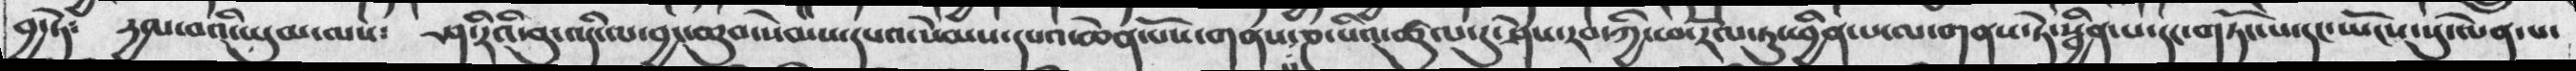བྱ་ཏེ༴  རྱལ་བའི་ཡུམ་ལས༴  ཤ་རིའི་བུ་འདི་ལ་བྱང་ཆུབ་སེམས་དཔའ་སེམས་དཔའ་ཆེན་པོས་གནས་ཎ་པའི་ཚུལ་དུ་ཤེས་རབ་ཀྱི་ཕ་རོལ་ཏུ་ཕྱིན་པ་ལ་གནས་ཏེ་སྦྱིན་པ་དང་གཏོང་པ་དང་ཡོངས་སུ་ལེན་པ་
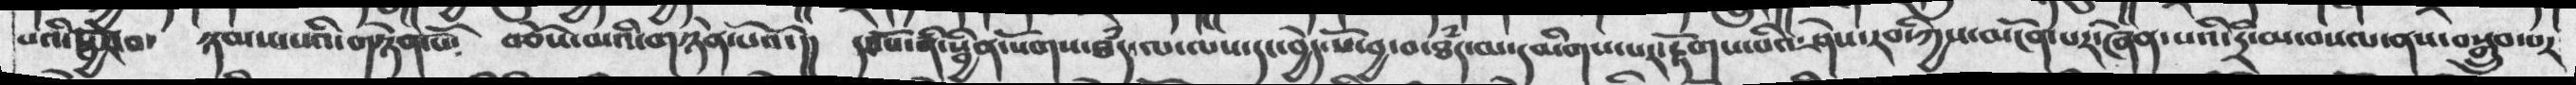པའི་སྦྱོར་བ་  ཉམས་པའི་གཉེན་པོ  བཅོས་མའི་གཉེན་པོའོ་།།  དཅོས་ནི་སྦྱིན་སོགས་ཐཾད་ལ་ལས་དང་བྱེད་པོ་བྱ་བ་ཐཾད་མ་དམིགས་པར་རྟོགས་པའི་ཤེས་རབ་ཀྱིས་མངོན་པར་ཞེན་པའི་དྲི་མ་བསལ་ནས་བསྒྲུབ་བར
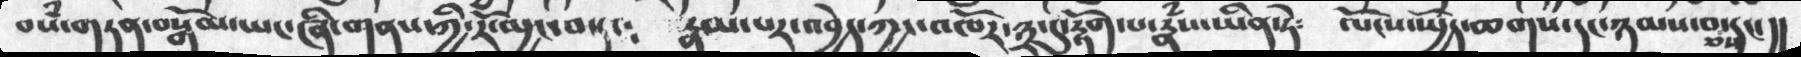བསཾ་གཏན་བསྒོམ་ཡང་ཞི་གནས་ཀྱི་རོ་མྱང་བསྟང༴  རྣམ་པར་འབྱེད་ཀྱང་འཁོར་༣་དུ་རྟོག་པ་རྣཾས་ཡིན་ཏེ༴  ལོངས་སྤྱོད་ཆགས་དང་ཉམས་བཅས་དང་།།
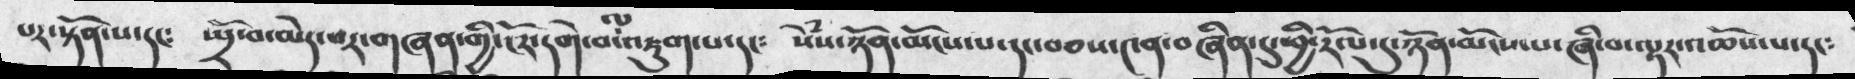པར་སྟོན་པ་དང༴   སྤྲོ་བ་མེད་པར་གཞན་གྱི་ངོར་དགེ་བ་ལ་འཇུག་པ་དང༴    སེཾས་ཉོན་མོངས་པ་དང་བཅས་༤ན་བཞིན་དུ་ཕྱི་རོལ་དུལ་ཉོན་མོངས་པ་ཞི་བ་ལྟར་འཆོས་པ་དང༴
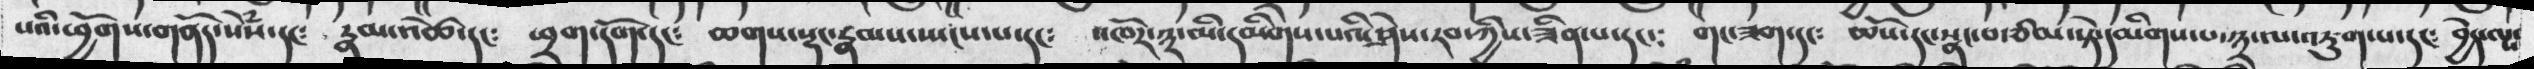པའི་ཕྱོགས་གནོད་སེཾས་དང༴   རྣམ་འཚེ་དང༴   ཕྲག་དོག་དང༴   ཆགས་སྡང་རྣམས་སྤངས་པ་རང༴   འཁོར་༣་མི་དམིགས་པའི་ཤེས་རབ་ཀྱིས་ཟིན་པ་དང༴  གང་ཟག་དང༴   ཆོས་དང་སྣང་བ་ཙམ་སྟེ་དམིགས་པ་༣་ལ་འཇུག་པ་དང༴   བྱེད་ལས་
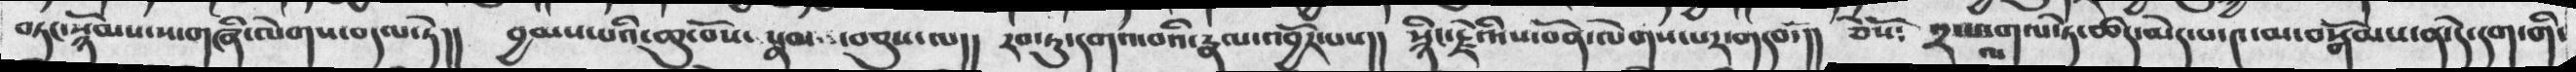བཏང་སྙོམས་ས་གཞི་ལེགས་བདལ་ཏེ།།   བྱམས་པའི་ཆུ་བོས་རྣམ་བཅུས་ལ།།   རབ་ཏུ་དགའ་བའི་རྣལ་འབྱོར་པས།།  སྙིང་རྗེའི་ས་བོན་ལེགས་པར་གདབ་།།  ཅེསོ༴   ༢་པ་ལ་གལ་ཏེ་ཚད་མེད་པ་༤་མ་བསྒོམས་ན་དེ་དག་གི་
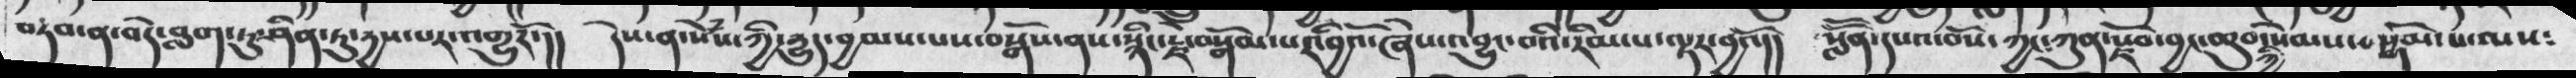བཏབ་ན་བདེ་བླག་ཏུ་ཤིན་ཏུ་དྱས་པར་འགྱུརོ་།།  དེས་ན་སེཾས་ཀྱི་དྱུད་བྱམས་པས་བསྒོས་ནས་སྙིང་རྗེ་བསྒོམ་པར་མི་བྱའོ་ཞེས་འབྱུང་བའི་རིམ་པ་ལྟར་བྱའོ།།   སློོན་དཔའ་བོས་ཀྱང༴ཀུན་རྫོམ་བྱང་ཆུབ་ཀྱི་སེམས་བསྒོམ་པ་ལས༴
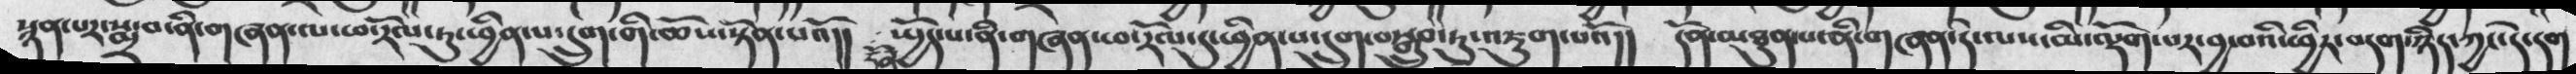སྙན་པར་སྨྲ་བ་ནི་གཞན་ལ་ཕ་རོལ་ཏུ་ཕྱིན་པ་དྲུག་གི་ཆོས་སྟོན་པའོ།།  དོན་སྤྱོད་པ་ནི་གཞན་ཕ་རོལ་དུ་ཕྱིན་པ་དྲུག་བསྒྲུབ་ཏུ་འཇུག་པའོ།།  དོན་མཐུན་པ་ནི་གཞན་དེ་ལས་མི་ལྡོག་པར་བྱ་བའི་ཕྱིར་བདག་ཉིད་ཀྱང་དེ་དག
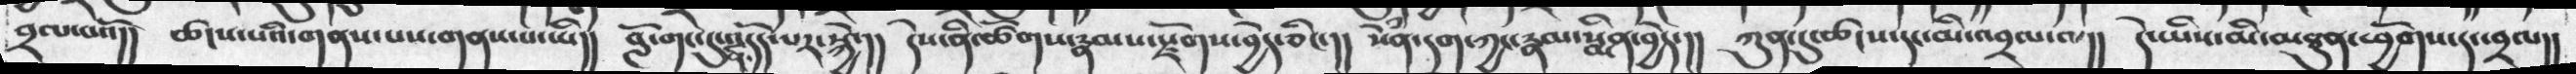བྲལ་བའོ།།  ཚངས་པའི་གནས་པས་གནས་པ་ཡི།།  བློ་གང་དུ་འདོད་པར་སྐྱེ་།།  དེས་ནི་ཚོགས་རྣམས་རྫོགས་བྱེད་ཅིང་།།  སེཾན་དག་ཀྱང་རྣམ་སྨིན་བྱེད་།།  ཀུན་དུ་ཚངས་དང་མི་འབྲལ་ལ།།  དེ་ཡིས་མི་མཐུན་ཕྱོགས་དང་བྲལ།།
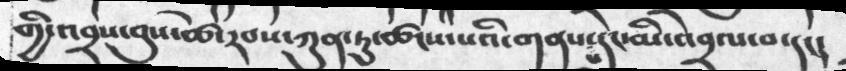གྱི་འབྲས་བུས་ཚེ་རབས་ཀུན་ཏུ་ཚངས་པའི་གནས་པ་དང་མི་འབྲལ་བ་དང།
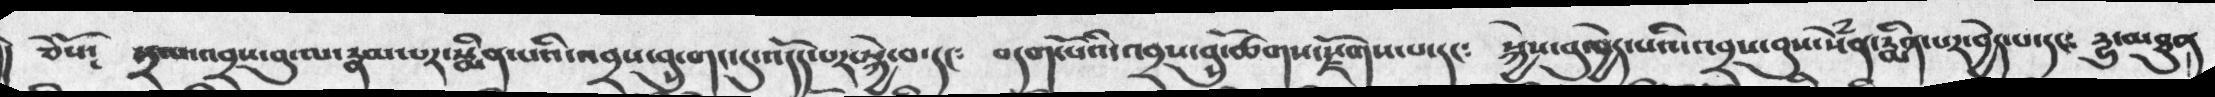། ཅེསོ༴  སྒྲལ་འབྲས་བུ་ལ་རྣམ་པར་སྨིན་པའི་འབྲས་བུ་གང་དུ་འདོད་པར་སྐྱེ་བ་དང༴  བདག་པོའི་འབྲས་བུས་ཚོགས་རྫོགས་པ་དང༴  སྐྱེས་བུ་བྱེད་པའི་འབྲས་བུས་སེཾན་རྨིན་པར་བྱེད་པ་དང༴  དྱུ་མཐུན
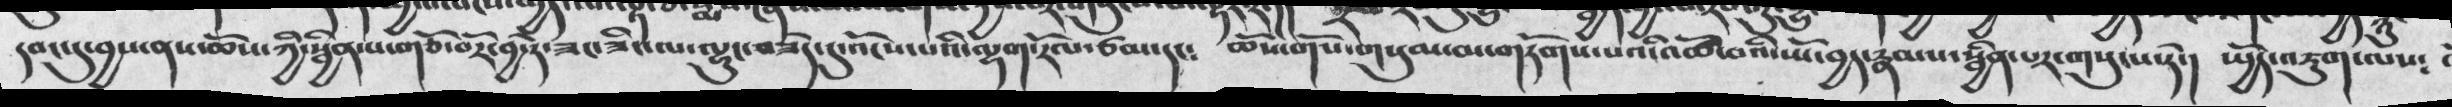དབང་དུ་བྱས་ནས་ཆོས་ཀྱི་སྦྱིན་པ་གཙོ་བོར་བྱ་ཏེ་ཟང་ཟིང་ལ་ལྷུང་བཟེད་དུ་འོངས་པའི་ལྷག་རོལ་ཙམ་དང༴    ཆོས་གོས་གསུམ་མ་གཏོགས་པའི་འཚོ་བའི་ཡོ་བྱད་རྣམས་སྦྱིན་པར་གསུངས་དེ་།  སྤྱོད་འཇུག་ལས༴
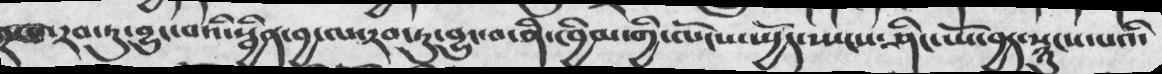རབ་ཏུ་བྱུང་བའི་སྦྱིན་བྱ་ལ་རབ་ཏུ་བྱུང་བ་ནི་ཁྱིམ་གྱི་ལོངས་སྤྱོད་སྤངས༴ཤིང་ཡོ་བྱད་སྙུངས་པའི་
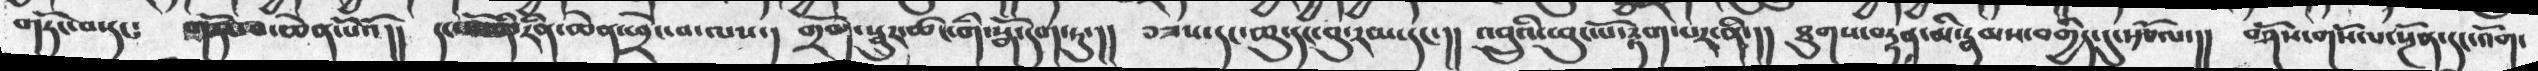གཏོང་བ་དང༴  གཏོང་བ་ཆེན་པོའོ།།  དང་པོ་ནི་རིན་ཆེན་ཕྲེང་བ་ལས་།  གྲོག་སྦུར་ཚང་གི་སྒོ་དག་ཏུ་།།  བཟས་དང་ཆུ་དང་བུ་རམ་དང་།།  འབྲུའི་ཕུང་པོ་རྟག་པར་ནི་།།  ཐུགས་བརྟན་མི་རྣམས་བགྱིད་དུ་རྩོལ་།།  བཤོས་གསོལ་སྔོན་དང་འོག་
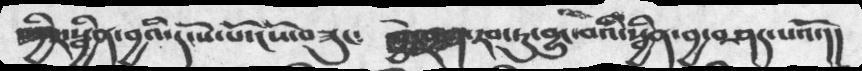སྤྱིར་སྦྱིན་བྱའི་དངོས་པོ་ངོས་བཟུང༴ བྱེ་བྲག་རབ་ཏུ་བྱུང་བའི་སྦྱིན་བྱ་བཤད་པའོ་།།
